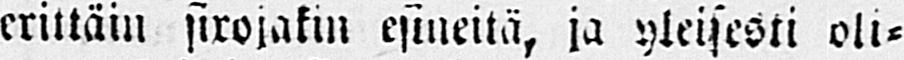erittäin sirojakin esineitä, ja yleisesti oli-
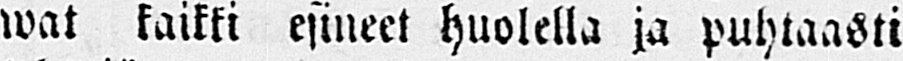wat kaikki esineet huolella ja puhtaasti
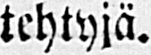tehtyjä.
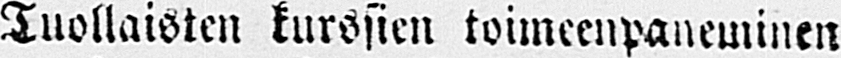Tuollaisten kurssien toimeenpaneminen
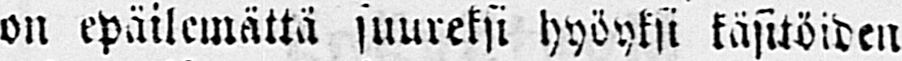on epäilemättä suureksi hyöyksi käsitöiden
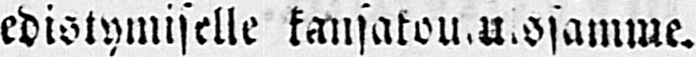edistymiselle kansatou.u.ssamme.
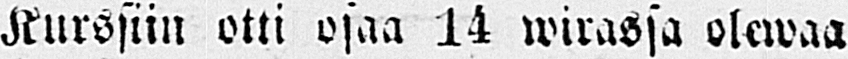Kurssiin otti osaa 14 wirassa olewaa
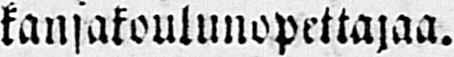kansakoulunopettajaa.
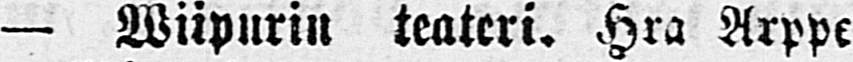— Wiipurin teateri. Hra Arppe
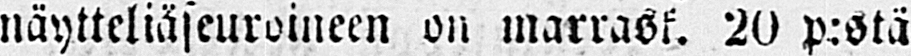näytteliäseuroineen on marrask. 20 p:stä
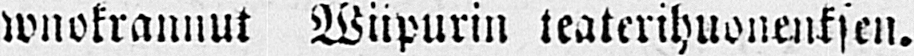wnokrannut Wiipurin teaterihuonenksen.
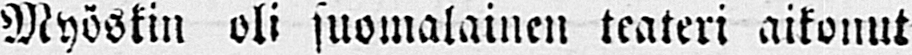Myöskin oli suomalainen teateri aikonut
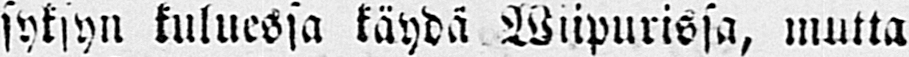syksyn kuluessa käydä Wiipurissa, mutta
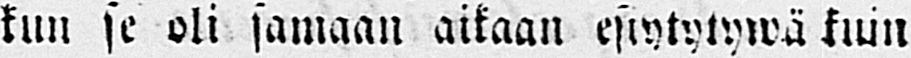kun se oli samaan aikaan esiytytywä kuin
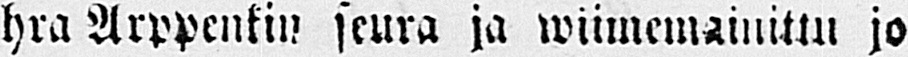hra Arppenkin seura ja wiimemainittu jo
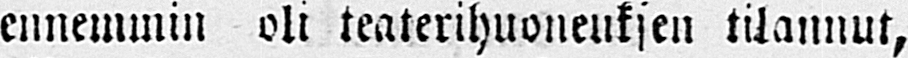ennemmin oli teaterihuoneuksen tilannut,
